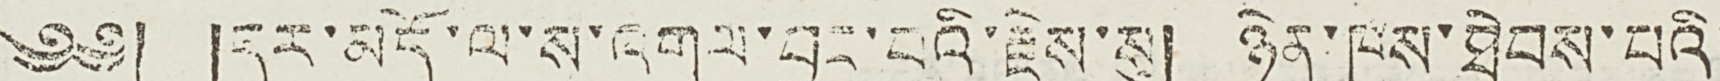༄༅། །དར་མདོ་ལ་ས་འགུལ་བྱུང་བའི་རྗེས་སུ། ཉེན་ཁས་ཐེབས་པའི་
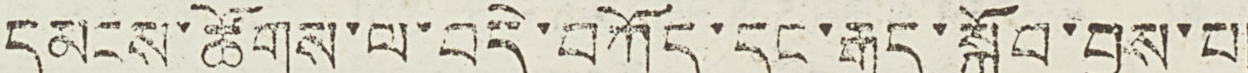དམངས་ཚོགས་ལ་བདེ་བཀོད་དང་རྒུད་སྐྱོབ་བྱས་པ།
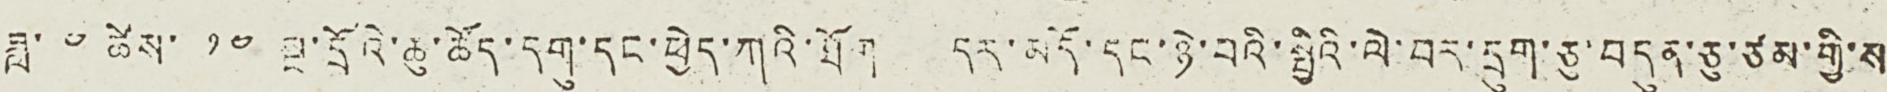ཟླ་ ༤ ཚེས་ ༡༤ སྔ་དྲོའི་ཆུ་ཚོད་དགུ་དང་ཕྱེད་ཀའི་ཐོག དར་མདོ་དང་ཉེ་བའི་སྤྱིའི་ལེ་བར་དྲུག་ཅུ་བདུན་ཅུ་ཙམ་གྱི་ས
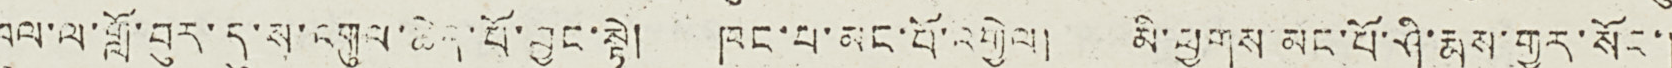ཁུལ་ལ་གློ་བུར་དུ་ས་འགུལ་ཆེན་པོ་བྱུང་སྟེ། ཁང་པ་མང་པོ་འགྱེལ། མི་ཕྱུགས་མང་པོ་ཤི་རྨས་གྱུར་སོང་།
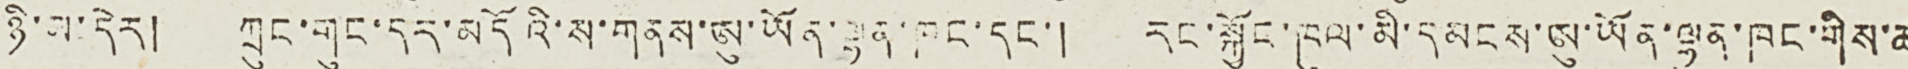ཉི་མ་དེར། ཀྲུང་གུང་དར་མདོའི་ས་གནས་ཨུ་ཡོན་ལྷན་ཁང་དང་། རང་སྐྱོང་ཁུལ་མི་དམངས་ཨུ་ཡོན་ལྷན་ཁང་གིས་ཚ
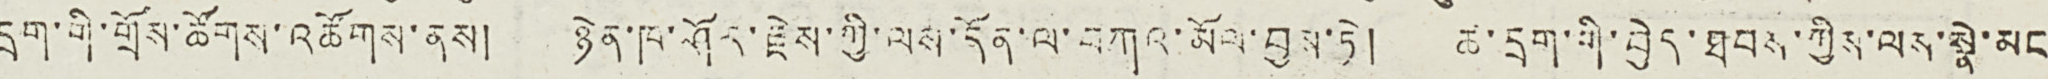དྲག་གི་གྲོས་ཚོགས་འཚོགས་ནས། ཉེན་ཁ་ཤོར་རྗེས་ཀྱི་ལས་དོན་ལ་བཀའ་མོལ་བྱས་ཏེ། ཚ་དྲག་གི་བྱེད་ཐབས་ཀྱིས་ལས་སྣེ་མང
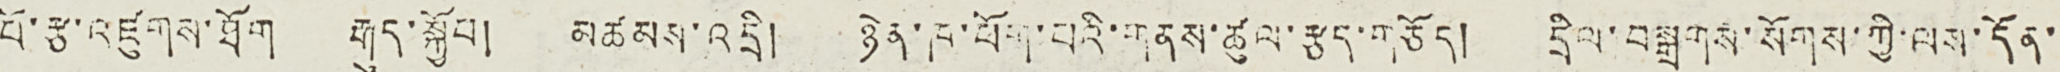པོ་རྩ་འཛུགས་ཐོག རྒུད་སྐྱོབ། མཚམས་འདྲི། ཉེན་ཁ་ཕོག་པའི་གནས་ཚུལ་རྩད་གཅོད། དྲིལ་བསྒྲགས་སོགས་ཀྱི་ལས་དོན་
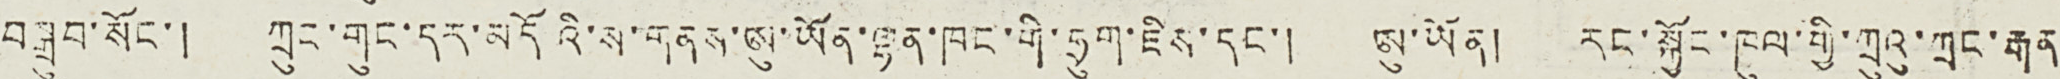བསྒྲུབ་སོང་། ཀྲུང་གུང་དར་མདོའི་ས་གནས་ཨུ་ཡོན་ལྷན་ཁང་གི་ཧྲུག་ཇིས་དང་། ཨུ་ཡོན། རང་སྐྱོང་ཁུལ་གྱི་ཀྲུའུ་ཀྲང་རྒན
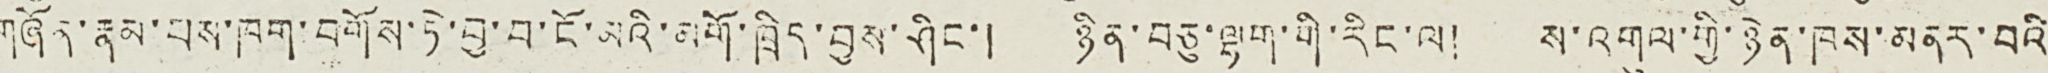གཞོན་རྣམ་པས་ཁག་བགོས་ཏེ་བྱ་བ་ངོ་མའི་མགོ་ཁྲིད་བྱས་ཤིང་། ཉིན་བཅུ་ལྷག་གི་རིང་ལ། ས་འགུལ་གྱི་ཉེན་ཁས་མནར་བའི
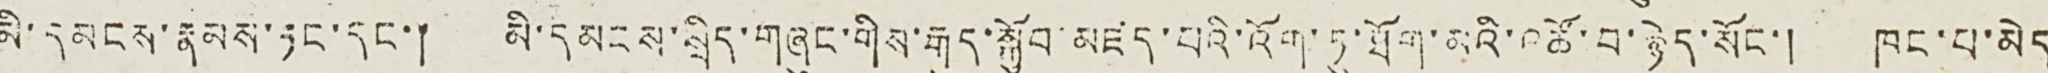མི་དམངས་རྣམས་ཏང་དང་། མི་དམངས་སྲིད་གཞུང་གིས་རྒུད་སྐྱོབ་མཛད་པའི་འོག་ཏུ་ཐོག་མའི་འཚོ་བ་རྙེད་སོང་། ཁང་པ་མེད
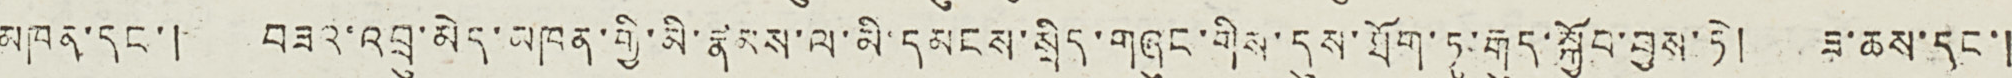མཁན་དང་། བཟའ་འབྲུ་མེད་མཁན་གྱི་མི་རྣམས་ལ་མི་དམངས་སྲིད་གཞུང་གིས་དུས་ཐོག་ཏུ་རྒུད་སྐྱོབ་བྱས་ཏེ། ཟ་ཆས་དང་།
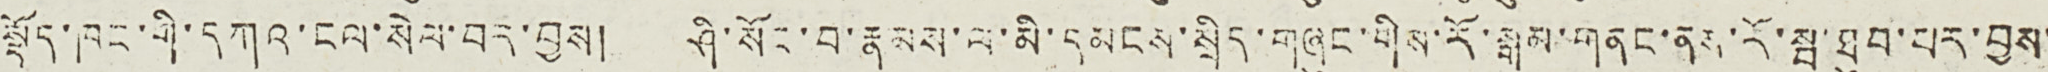སྡོད་ཁང་གི་དཀའ་ངལ་སེལ་བར་བྱས། ཤི་སོང་བ་རྣམས་ལ་མི་དམངས་སྲིད་གཞུང་གིས་རོ་སྒམ་གནང་ནས་རོ་སྦ་ཐུབ་པར་བྱས་
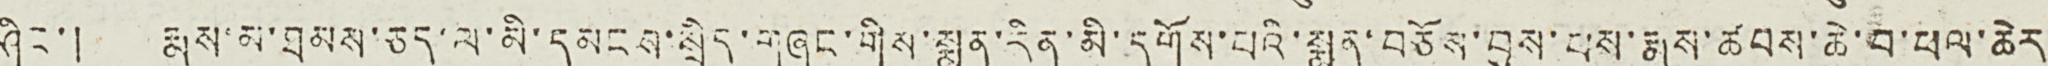ཤིང་། རྨས་མ་ཐམས་ཅད་ལ་མི་དམངས་སྲིད་གཞུང་གིས་སྨན་རིན་མི་དགོས་པའི་སྨན་བཅོས་བྱས་པས་རྨས་ཚབས་ཆེ་བ་ཕལ་ཆེར
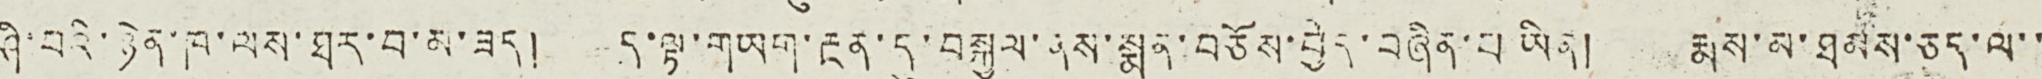ཤི་བའི་ཉེན་ཁ་ལས་ཐར་བ་མ་ཟད། ད་ལྟ་གཡག་རྔན་དུ་བསྐྱལ་ནས་སྨན་བཅོས་བྱེད་བཞིན་པ་ཡིན། རྨས་མ་ཐམས་ཅད་ལ་་
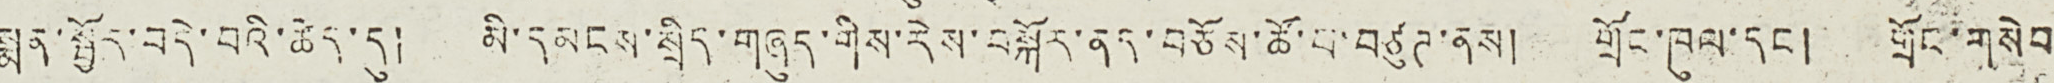སྨན་སྤྱོར་བདེ་བའི་ཆེད་དུ། མི་དམངས་སྲིད་གཞང་གིས་རེས་བསྐོར་ནད་བཅོས་ཚོ་བ་བཙུཊ་ནས། གྲོང་ཁུལ་དང ། གྲོང་གསེབ
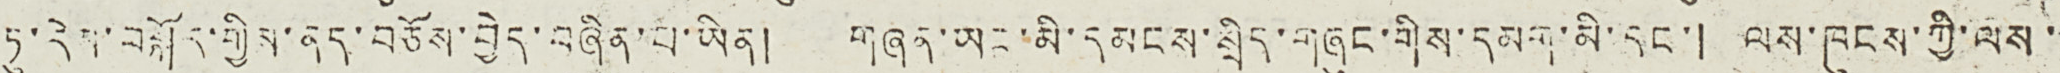ཏུ་དེས་བསྐོར་གྱིས་ནད་བཅོས་བྱེད་བཞིན་པ་ཡིན། གཞན་ཡང་མི་དམངས་སྲིད་གཞུང་གིས་དམག་མི་དང་། ལས་ཁུངས་ཀྱི་ལས་
